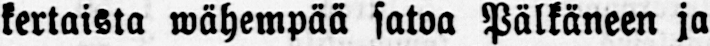kertaista wähempää satoa Pälkäneen ja
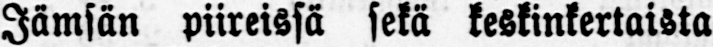Jämsän piireissä sekä keskinkertaista
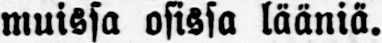muissa osissa lääniä.
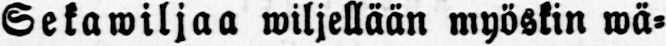Sekawiljaa wiljellään myöskin wä-
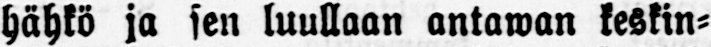hähkö ja sen luullaan antawan keskin-
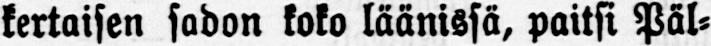kertaisen sadon koko läänissä, paitsi Päl-
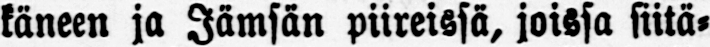käneen ja Jämsän piireissä, joissa siitä-
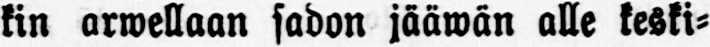kin arwellaan sadon jääwän alle keski-
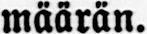määrän.
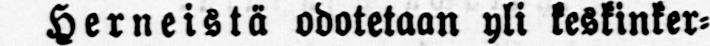Herneistä odo yrskinker-
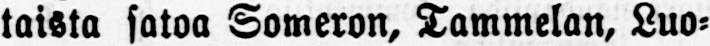taista satoa Someron, Tammelan, Luo-
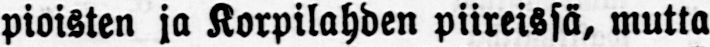pioisten ja Korpilahden piireissä, mutta
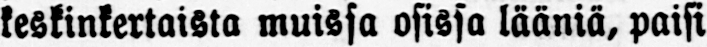keskinkertaista muissa osissa lääniä, paisi
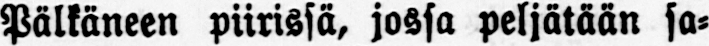Pälkäneen piirissä, jossa peljätään sa-
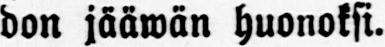don jääwan huonoksi.
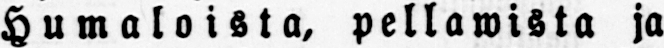Humaloista, pellawista ja
